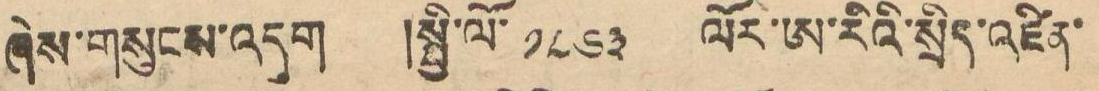ཞེས་གསུངས་འདུག །སྤྱི་ལོ་ ༡༨༦༣ ལོར་ཨ་རིའི་སྲིད་འཛིན་
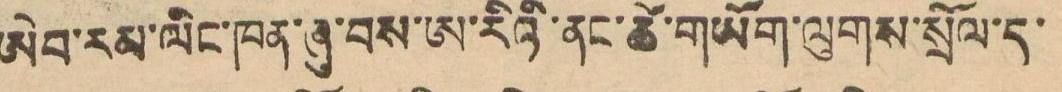ཨེབ་རམ་ལིང་ཁན་ཞུ་བས་ཨ་རིའི་ནང་ཚེ་གཡོག་ལུགས་སྲོལ་ད་
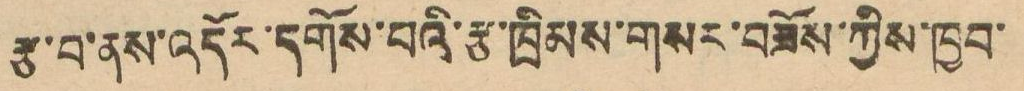རྩ་བ་ནས་འདོར་དགོས་པའི་རྩ་ཁྲིམས་གསར་བཟོས་ཀྱིས་ཁྱབ་
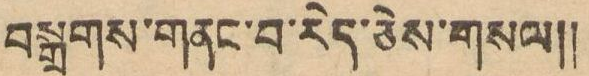བསྒྲགས་གནང་བ་རེད་ཅེས་གསལ།།
